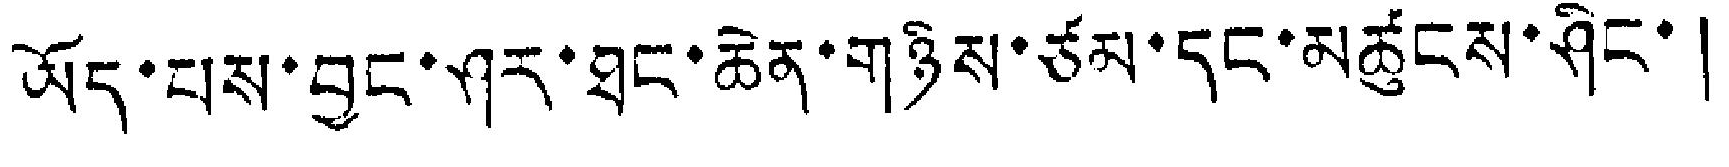ཡོད་པས་བྱང་ཤར་ཐང་ཆེན་གཉིས་ཙམ་དང་མཚུངས་ཤིང་།
